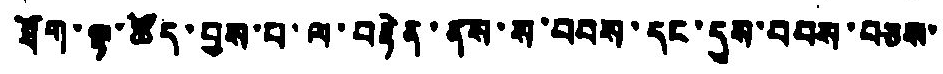ཐོག་ལྟ་ཚོད་བྱས་པ་ལ་བརྟེན་ནས་ས་བབས་དང་དུས་བབས་བཅས་
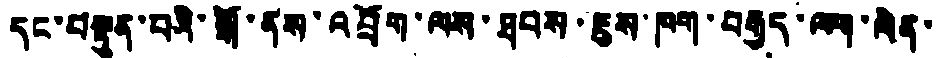དང་བསྟུན་པའི་སྒོ་ནས་འབྲོག་ལས་ཐབས་ཇུས་ཁག་བརྒྱད་ལག་ལེན་
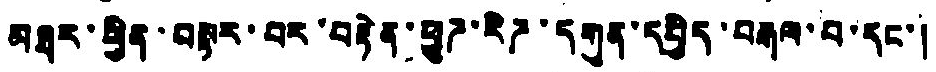མཐར་ཕྱིན་བསྟར་བར་བརྟེན་ཕྱུཌ་རིཌ་དགུན་དཔྱིད་བརྒལ་བ་དང་།
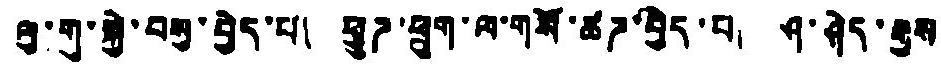ལུ་གུ་སྐྱེ་བསུ་བྱེད་པ། ཕྱུཌ་ཕྲུག་ལ་གསོ་ཚཌ་བྱེད་པ། ཤ་ཤེད་རྒྱས
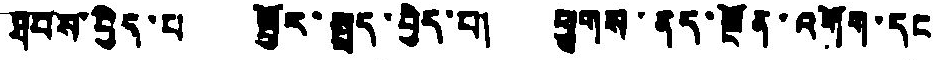ཐབས་བྱེད་པ སྦྱོར་སྤྲད་བྱེད་པ། ཕྱུགས་ནད་སྔོན་འགོག་དང
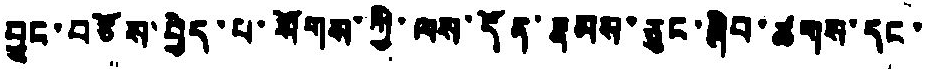བྱུང་བཅོས་བྱེད་པ་སོགས་ཀྱི་ལས་དོན་རྣམས་ཅུང་ཞིབ་ཚུགས་དང་
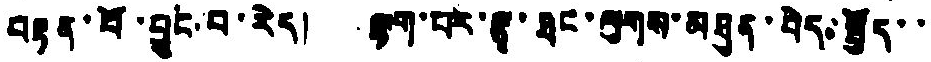བརྟན་པོ་བྱུང་བ་རེད། ལྷག་པར་རྩྭ་ཐང་ལུགས་མཐུན་བེད་སྤྱོད་་
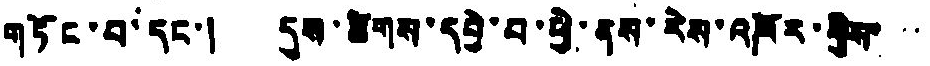གཏོང་བ་དང་། དུས་ཚིགས་དབྱེ་བ་ཕྱི་ནས་རེས་འཁོར་གྱིས་་་
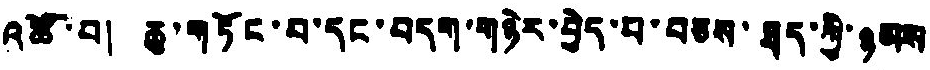འཚོ་བ། ཆུ་གཏོང་བ་དང་བདག་གཉེར་བྱེད་པ་བཅས་ཐད་ཀྱི་ཉམས
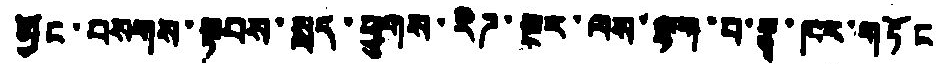མྱོང་བསགས་སྟབས་སླར་ཕྱུགས་རིཌ་ལྔར་ལས་ལྟག་པ་རྩྭ་ཁར་གཏོང
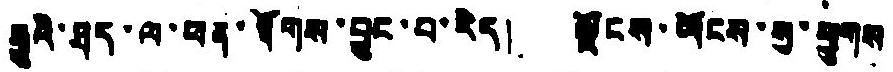རྒྱུའི་ཐད་ལ་ཕན་ཐོགས་བྱུང་བ་རེད། ལྗོངས་ཡོངས་སུ་ཕྱུགས
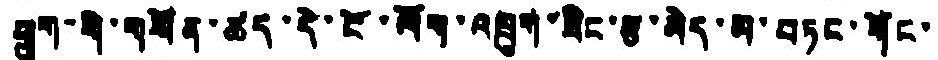ཕྲུག་གི་གསོན་ཚད་དེ་ངོ་ལོག་འཁྲུག་ཟིང་རྩ་མེད་མ་བཏང་གོང་
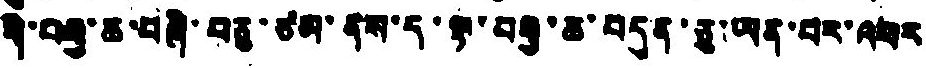གི་བརྒྱ་ཆ་བཞི་བཅུ་ཙམ་ནས་ད་ལྟ་བརྒྱ་ཆ་བདུན་ཅུ་ཡན་བར་འབར
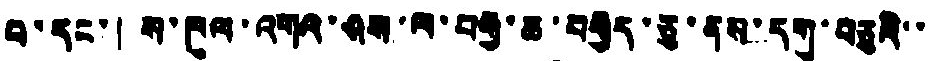བ་དང་། ས་ཁུལ་འགའ་ཤས་ལ་བརྒྱ་ཆ་བརྒྱད་ཅུ་ནས་དགུ་བཅུའི་་
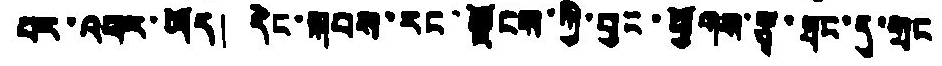བར་འཕར་ཡོད། དེང་སྐབས་རང་ལྗོངས་ཀྱི་བྱང་ཕྱོགས་རྩྭ་ཐང་དུ་གྲང
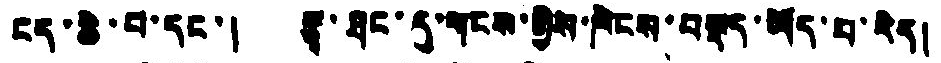ངར་ཆེ་བ་དང་། རྩྭ་ཐང་དུ་གངས་གྱིས་ཁེངས་བསྡད་ཡོད་པ་རེད།
